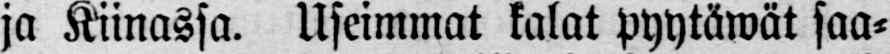ja Kiinassa. Useimmat kalat pyytäwät saa-
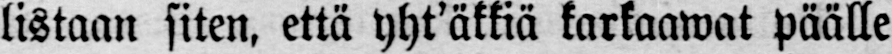listaan siten, että yht'äkkiä karkaawat päälle
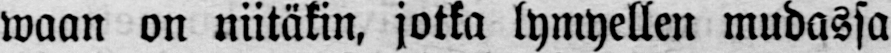waan on niitäkin, jotka lymyellen mudassa
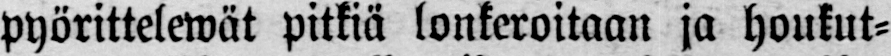pyörittelewät pitkiä lonkeroitaan ja houkut-
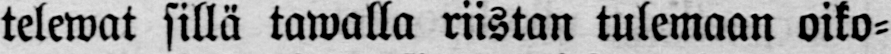telewat sillä tawalla riistan tulemaan oiko-
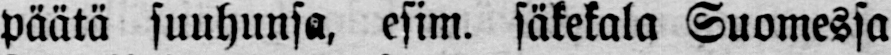päätä suuhunsa, esim. säkekala Suomessa
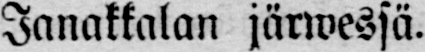Janakkalan järwessä.
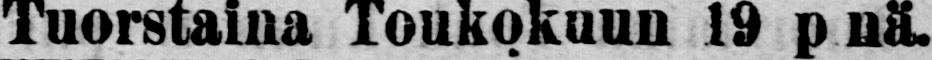Tuorstaina Tuokokuun 19 p nä.
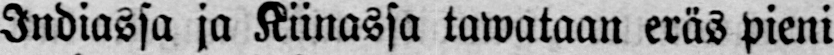Indiassa ja Kiinassa tawataan eräs pieni
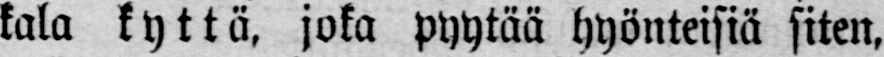kala kyttä, joka pyytää hyönteisiä siten,
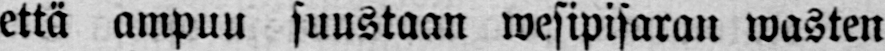että ampuu suustaan wesipisaran wasten
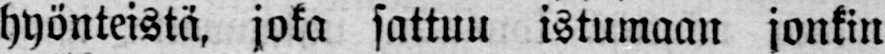hyönteistä, joka sattuu istumaan jonkin
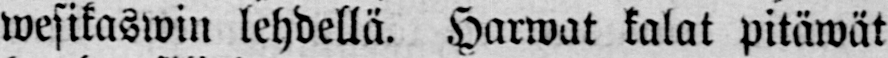wesikaswin lehdellä. Harwat kalat pitäwät
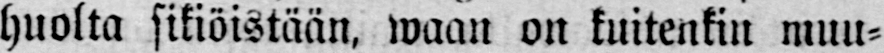huolta sikiöistään waan on kuitenkin muu-
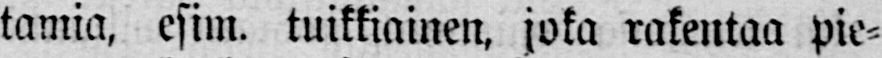tamia, esim. tuikkiainen, joka rakentaa pie-
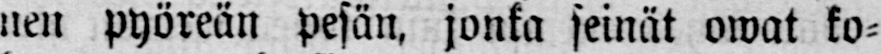nen pyöreän pesän, jonka seinät owat ko-
